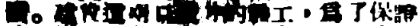鑽。建成這兩口鑽井的職工，爲了保證
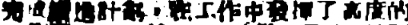完成月進計劃，在工作中發揮了高度的
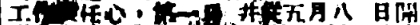工作責任心，第一口 井從五月八 日開
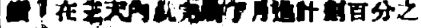鑽，在三天內就完成了月進計劃百分之
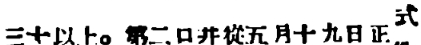三十以上。第二口井從五月十九日正式
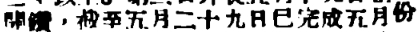開鑽，截至五月二十九日已完成五月份
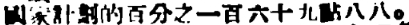國家計劃的百分之一百六十九點八八。
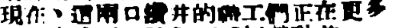現在、這兩口鑽井的職工們正在更多
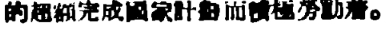的超額完成國家計劃而積極勞動着。
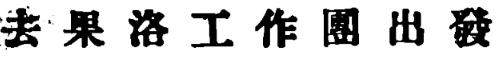去 果 洛 工 作 團 出 發
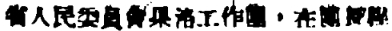省人民委員會果洛工作團，在團長程
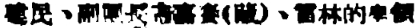建民、副團長古嘉賽（藏）、雷林的率領
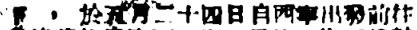下 ，於五月而十四日自西寧出發前往
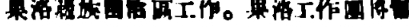果洛藏族自治區工作。果洛工作團將幫
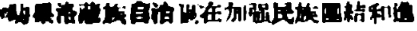助果洛藏族自治區在加強民族團結和進
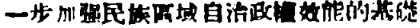一步加強民族區域自治政權效能的基礎
